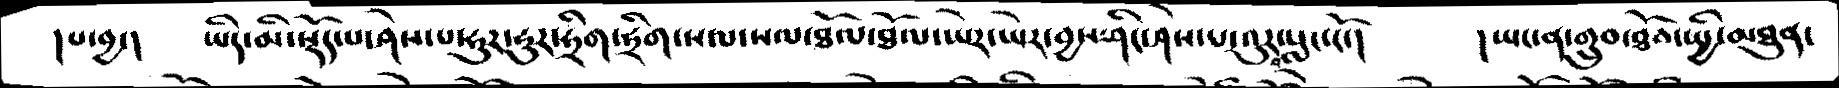།པ་བྱ་།    ཡིད་མི་སྡོད་པ་ཤེས་པ་ཧུར་ཧུར་ཧྲིག་ཧྲིག་སལ་སལ་ཐོལ་ཐོལ་ཡེར་ཡེར་བྱས་ཤིང་ཤེས་པ་འུར་བསླང་ངོ་།    །ཡང་ན་གྲུབ་ཐོབ་སྤྱི་མཐུན་
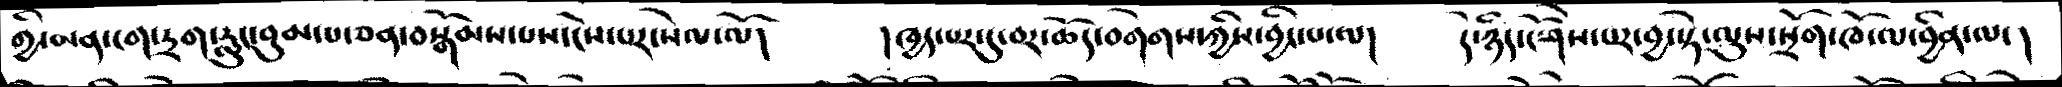གྱི་མན་ངག་དྲག་རླུང་བུམ་པ་ཅན་བསྒོམས་པས་ངེས་པར་སེལ་ལོ།    །ཁྱད་པར་དུ་བར་ཆོད་བགེགས་ཀྱིས་བྱིང་པ་ལ།   དེ་ཉིད་ངོ་ཤེས་པར་བྱ་སྟེ་ལུས་སྲོག་ཁོ་ལ་བྱིན་ལ་།
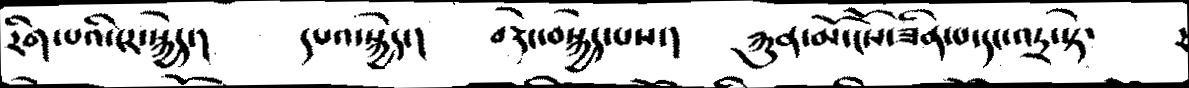རིག་པའི་ངར་སྐྱེད་།     དཔའ་སྐྱེད་།     བརྡེང་བསྐྱེདཔས་།    རྐུན་མོ་ངོས་ཟིན་པ་དང་འདྲ་སྟེ་
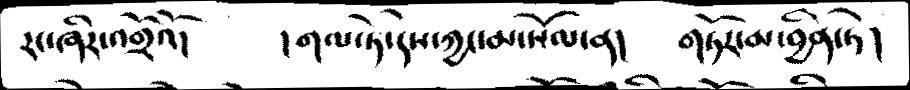རང་ཞིར་འགྲོའོ།     །གལ་ཏེ་དེས་ཀྱང་མ་སོལ་ན།    གཏོར་མ་བྱིན་ཏེ།
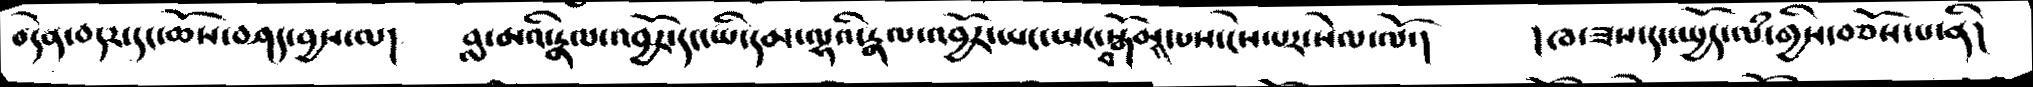བདེན་བདར་དང་ཆོས་བཤད་བྱས་ལ།    བླ་མའི་རྣལ་འབྱོར་དང་ཡི་དམ་ལྷའི་རྣལ་འབྱོར་ཡང་ཡང་བསྒོམས་པས་ངེས་པར་སེལ་ལོ་།    །ཁ་ཟས་དང་སྤྱོད་ལཾ་གྱིས་བཅོས་པ་ནི།
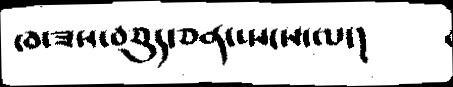ཁ་ཟས་བཅུད་ཅན་སྤངས་ལ་།
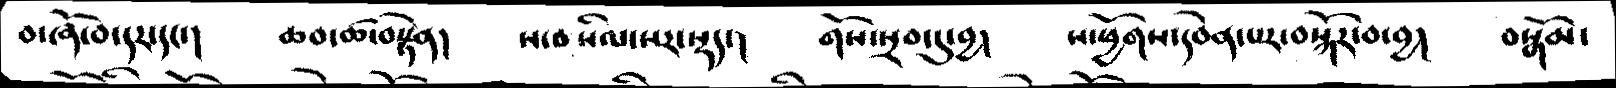བ་ཞོ་བ་དར་དང་།   ཆབ་ཚ་བསྟེན།    ས་བསིལ་སར་སྡད་།   གོས་སྲབ་དུ་བྱ།    ས་ཕྱོགས་དབེན་པར་བསྐོར་བ་བྱ།    བསྒོམ་
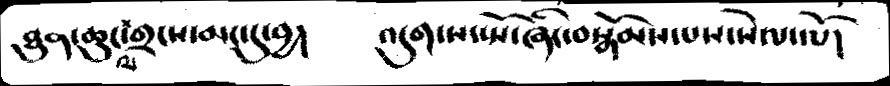ཐུན་ཆུང་ལ་གྲངས་མང་དུ་བྱ།     འདུག་ས་སྤོ་ཞིང་བསྒོམས་པས་སེལ་ལོ།
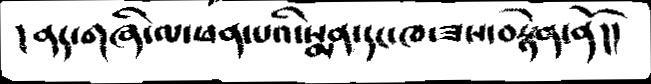།  ནད་གཞི་ལ་ཕན་པའི་སྨན་དང་ཁ་ཟས་བསྟེན་ནོ།།
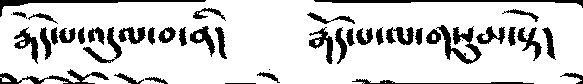རྒོད་པ་འདུལ་བ་ནི།    རྒོད་པ་ལ་གསུམ་སྟེ།
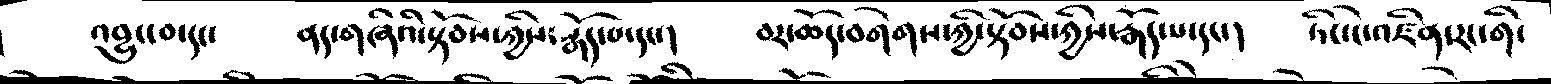འབྱུང་བ་དང་    ནད་གཞིའི་སྟོབས་ཀྱིས་རྒོད་པ་དང་།    བར་ཆོད་བགེགས་ཀྱི་སྟོབས་ཀྱིས་རྒོད་པ་དང་།    ཏིང་ངེ་འཛིན་རང་གི་
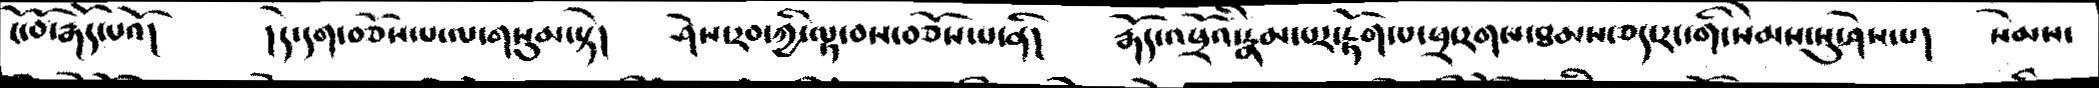ངོ་བོ་རྒོད་པའོ།    །དེ་དག་བཅོས་པ་ལ་གསུམ་སྟེ།    ཤེས་རབ་ཀྱི་ལྟ་བས་བཅོས་པ་ནི།    རྒོད་འཕྲོའི་རྣམ་པར་རྟོག་པ་ཕྲ་རགས་ཐམས་ཅད་རང་གི་སེམས་སུ་ཤེས་པ།    སེམས་
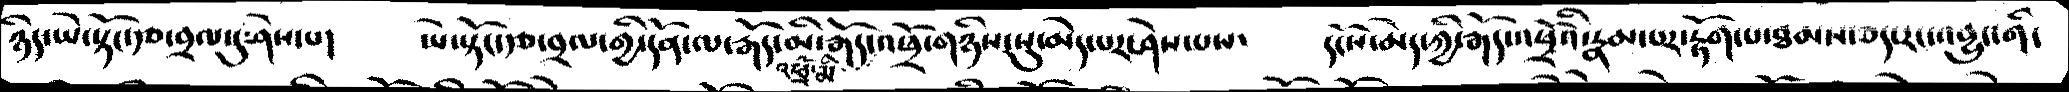ཉིད་ཡེ་སྟོང་རྩ་བྲལ་དུ་ཤེས་པ།   ཡེ་སྟོང་རྩ་བྲལ་གྱི་དོན་ལ་རྒོད་མི་རྒོད་འཕྲོ་མི་འཕྲོ་གཉིས་སུ་མེད་པར་ཤེས་པས་  དངོས་མེད་ཀྱི་སྒོད་འཕྲོའི་རྣམ་པར་རྟོག་པ་ཐམས་ཅད་རང་འབྱུང་གི་
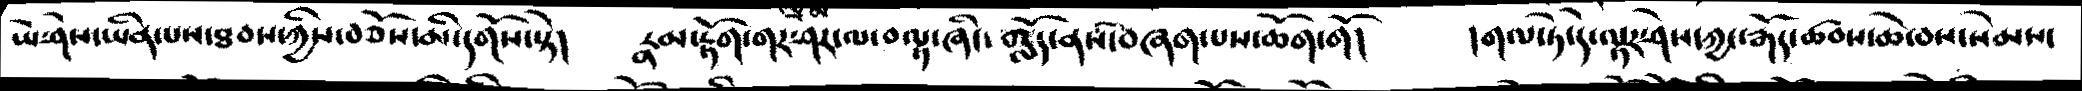ཡེ་ཤེས་ཡིན་པས་ཐབས་ཀྱིས་བཅོས་མི་དགོས་སྟེ།   རྣམ་རྟོག་གར་ཤར་ལ་བལྟ་ཞིང་གློད་ནས་བཞག་པས་ཆོག་གོ།   །གལ་ཏེ་དེ་ལྟར་ཤེས་ཀྱང་རྒོད་ཚབས་ཆེ་བས་སེམས་
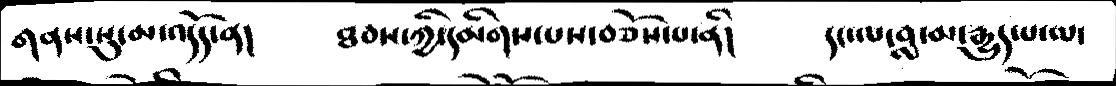གནས་སུ་མ་འདོད་ན།   ཐབས་ཀྱི་དམིགས་པས་བཅོས་པ་ནི།   དང་ལ་བླ་མ་རྒྱུད་པ་ལ་
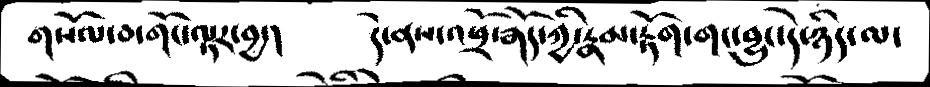གསོལ་བ་གོང་ལྟར་བྱ་།  དེ་ནས་འཕྲོ་རྒོད་ཀྱི་རྣམ་རྟོག་གང་བྱུང་དེ་ཉིད་ལ་
